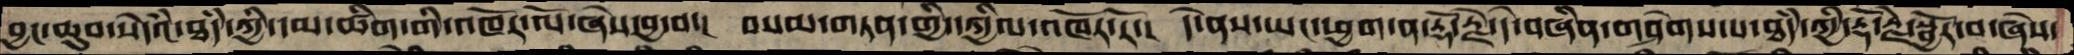བྱང་ཆུབ་སེདཾའ་ཐཾད་ཀྱི་དམ་ཚིག་གི་འཁོར་ལོ་ཞེས་བྱ་བ་།  བསམ་གཏན་གྱི་དཀྱིལ་འཁོར་རོ་།  དེ་ནས་ཡང་ཕྱག་ན་རྡོ་རྗེ་དེ་བཞིན་གཤེགས་པ་ཐཾད་ཀྱི་རྡོ་རྗེ་སྦྱོར་བ་ཞེས་
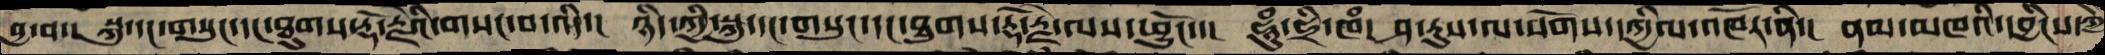བྱ་བ་།  སྐུ་དང་གསུང་དང་ཐུགས་རྡོ་རྗེའི་གསང་བ་འདི་།   ཉིད་ཀྱི་སྐུ་དང་གསུང་དང་ཐུགས་རྡོ་རྗེ་ལས་ཕྱུངོ་་།  ཧཱུཾ་ཧྲི་ཁཾ།  ཤ་རུས་ལ་སོགས་དཀྱིལ་འཁོར་ནི་།  ནམ་མཁའི་དབྱིངས་ཀྱི
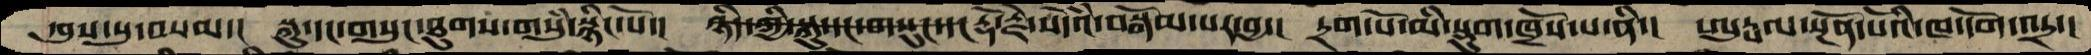དབུས་སུ་བསམ་།  སྐུ་དང་གསུང་ཐུགས་གསུཾ་སྙིང་པོ་།   ཉིད་ཀྱི་སྐུ་དང་གསུང་དང རྡོ་རྗེ་སེདའཾ་བསྒོམ་པར་བྱ་།  དྲག་པོ་མི་སྡུག་ཁྲོས་པ་ནི་།  ཨུཏྤལ་སྔོན་པོའི་ཁ་དོག་འདྲ་།
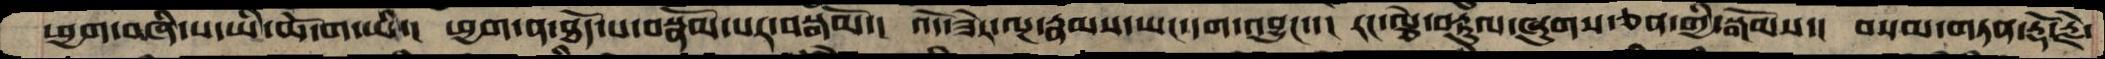ཕྱག་བཞི་པ་ཡི་ཆོ་ག་ཡི་།  ཕྱག་ན་ཐོད་པ་བསྣོམ་པར་བསྒོམ་།  འོད་ཟེར་ལྔ་རྣམས་ཡང་དག་འབྱུང་་།  རང་ལྕེ་བརྟུལ་ཞུགས་ཅན་གྱི་སྒོམས་།  བསམ་གཏན་རྡོ་རྗེ་
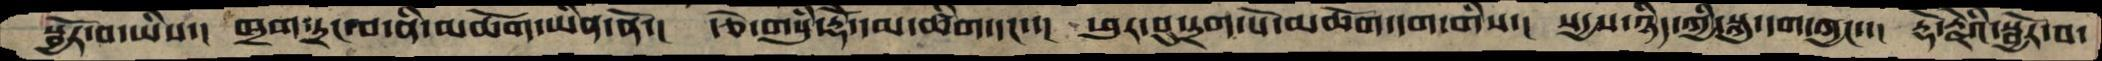སྦྱོར་བ་ཡིས་།  ཁྲག་དྲང་བ་ནི་མཆོག་ཡིན་ནོ་།  རྩེ་གསུཾ་རྡོེ་དམ་ཚིག་དང་་།  ཕུར་བུ་དྲག་པོ་མཆོག་དག་གིས་།  སདྱས་ཉིད་ཀྱི་སྐུ་དག་ཀྱང་་།  རྡོ་རྗེའི་སྦྱོར་བ་
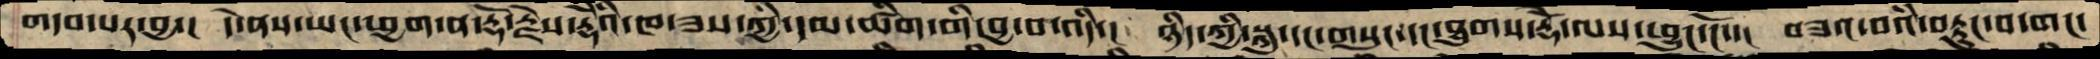གདབ་པར་བྱ་།  དེ་ནས་ཡང་ཕྱག་ན་རྡོ་རྗེས་རྡོེའི་ཁ་ཟས་ཀྱི་དམ་ཚིག་གི་བྱ་བ་འདི་།  ཉིད་ཀྱི་སྐུ་དང་གསུང་དང་ཐུགས་རྡོེ་ལས་ཕྱུང་ངོ་་།  བཟའ་བའི་བརྟུང་བ་གང་
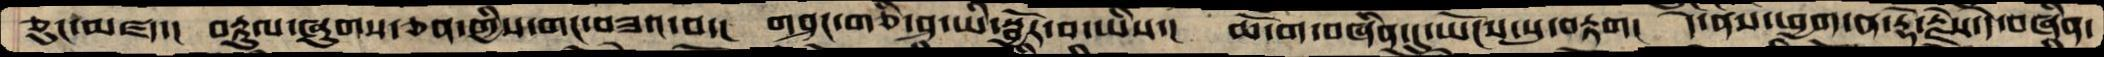ཅུང་མཛད་།  བརྟུལ་ཞུགས་ཅན་གྱིས་གང་བཟའ་བ་།  གཤང་གཅི་ཤ་ཡི་སྦྱོར་བ་ཡིས་།  ཆོ་ག་བཞིན་དུ་ཡོངས་སུ་བརྟག།  དེ་ནས་ཕྱག་ན་རྡོ་རྗེས་དེ་བཞིན་
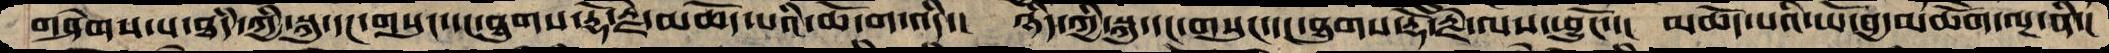གཤེགས་པ་ཐདཾ་ཀྱི་སྐུ་དང་གསུང་དང་ཐུགས་རྡོ་རྗེ་མཆོད་པའི་ཆོ་ག་འདི་།  ཉིད་ཀྱི་སྐུ་དང་གསུང་དང་ཐུགས་རྡོ་རྗེ་ལས་ཕྱུངོ་་།  མཆོད་པའི་ཡོ་བྱ་མཆོག་ལྔ་ནི་།
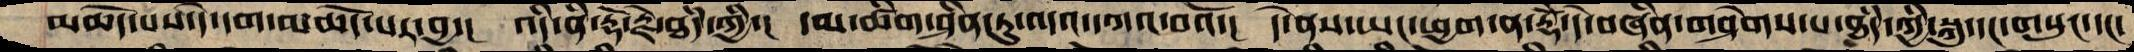མཆོད་པས་དེ་དག་མཆོད་པར་བྱ་།  འདི་ནི་རྡོ་རྗེ་ཐདཾ་ཀྱི་།  དམ་ཚིག་ཤིན་ཏུ་འདའ་དཀའ་བའོ་།  དེ་ནས་ཡང་ཕྱག་ན་རྡོེ་དེ་བཞིན་གཤེགས་པ་ཐདཾ་ཀྱི་སྐུ་དང་གསུང་དང་
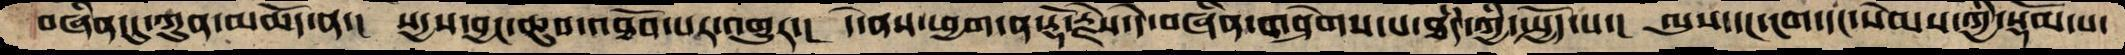བཞིན་དུ་ཀུན་མཆོད་ན་།  སདྱས་བྱང་ཆུབ་འཐོབ་པར་འགྱུར་།  དེ་ནས་ཕྱག་ན་རྡོ་རྗེས་དེ་བཞིན་གཤེགས་པ་ཐདཾ་ཀྱི་སྤྱོད་པ་།  ལུས་དང་ངག་དང་སེམས་ཀྱི་སྡོམ་པ་
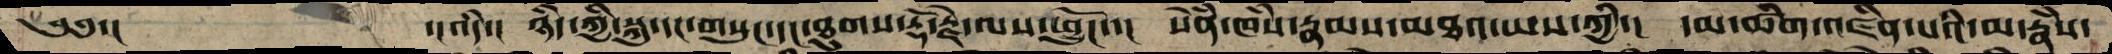༄༅་།   ་།འདི་།  ཉིད་ཀྱི་སྐུ་དང་གསུང་དང་ཐུགས་རྡོ་རྗེ་ལས་ཕྱུངོ་་།  སེཾན་ཁཾས་རྣམས་མཐའ་ཡས་ཀྱི་།  དམ་ཚིག་འཛིན་པའི་མ་རྣཾས་
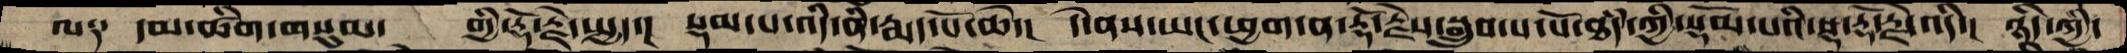ལ༑   དམ་ཚིག་གསུམ་   གྱི་རྡོ་རྗེ་སྤྱད་།  སྡམ་པ་འདི་ནི་རྨད་པོ་ཆེ་།  དེ་ནས་ཡང་ཕྱག་ན་རྡོ་རྗེས་སྒྲུབ་པ་པོ་ཐདཾ་ཀྱི་སྡོམ་པའི་སྡ་རྡོ་རྗེ་འདི་།  ཉིད་ཀྱི་
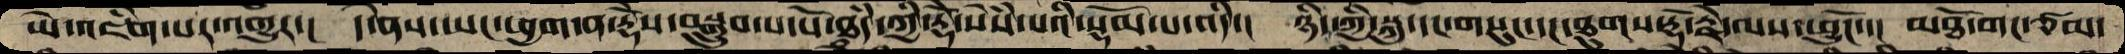ཡེ་འཇིག་པར་འགྱུར་།  དེ་ནས་ཡང་ཕྱག་ན་རྡོེས་བསྒྲུབ་པ་པོ་ཐདཾ་ཀྱི་རྡོེ་སེཾས་པའི་སྡོམ་པ་འདི་།  ཉིད་ཀྱི་སྐུ་དང་གསུང་དང་ཐུགས་རྡོ་རྗེ་ལས་ཕྱུངོ་་།  མཐོ་གང་ཙམ་
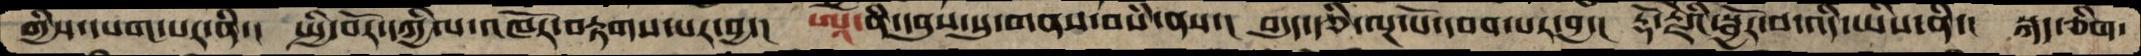གྱིས་དཔག་པར་ནི་།  སྤྱི་བོར་དཀྱིལ་འཁོར་བརྟགས་པར་བྱ་།  ཨཱོཾ་ནི་དབུས་སུ་གནས་བསཾ་ནས་།  བདུད་རྩི་ལྔ་པོ་དབབ་པར་བྱ་།  རྡོ་རྗེའི་སྦྱོར་བ་འདི་ཡིས་ནི་།  སྐད་ཅིག་
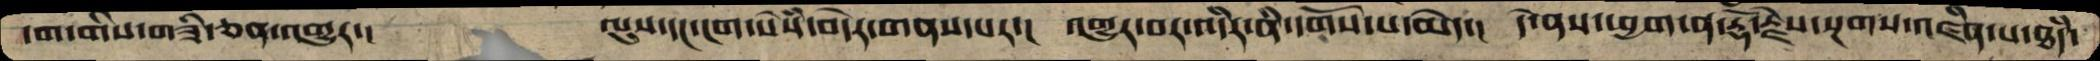དག་གིས་གཟི་ཅན་འགྱུར་།  ལུས་དང་ངག་སེཾས་བདེར་གནས་པར་།  འགྱུར་བར་འདིར་ནི་དགོས་པ་མེད་།  དེ་ནས་ཕྱག་ན་རྡོ་རྗེས་སྔགས་འཛིན་པ་ཐདཾ་
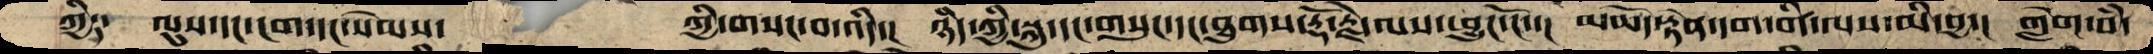ཀྱི༑  ལུས་དང་ངག་དང་སེམས་   ཀྱི་གསང་བ་འདི་།  ཉིད་ཀྱི་སྐུ་དང་གསུང་དང་ཐུགས་རྡོ་རྗེ་ལས་ཕྱུང་ངོ་་།  མཆོད་རྟེན་དག་གི་ལས་མི་བྱ་།  གླེག་བཾ་
